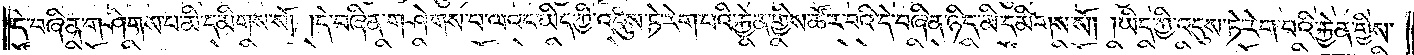དེ་བཞིན་གཤེགས་པ་མི་དམིགས་སོ། །དེ་བཞིན་གཤེགས་པ་ལའང་ཡིད་ཀྱི་འདུས་ཏེ་རེག་པའི་རྐྱེན་གྱིས་ཚོར་བའི་དེ་བཞིན་ཉིད་མི་དམིགས་སོ། །ཡིད་ཀྱི་འདུས་ཏེ་རེག་པའི་རྐྱེན་གྱིས་
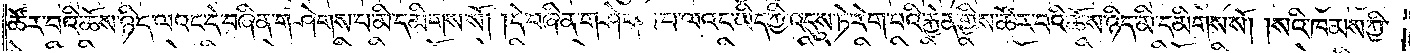ཚོར་བའི་ཆོས་ཉིད་ལའང་དེ་བཞིན་གཤེགས་པ་མི་དམིགས་སོ། །དེ་བཞིན་གཤེགས་པ་ལའང་ཡིད་ཀྱི་འདུས་ཏེ་རེག་པའི་རྐྱེན་གྱིས་ཚོར་བའི་ཆོས་ཉིད་མི་དམིགས་སོ། །སའི་ཁམས་ཀྱི་
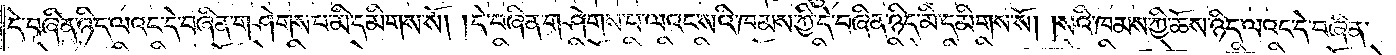དེ་བཞིན་ཉིད་ལའང་དེ་བཞིན་གཤེགས་པ་མི་དམིགས་སོ། །དེ་བཞིན་གཤེགས་པ་ལའང་སའི་ཁམས་ཀྱི་དེ་བཞིན་ཉིད་མི་དམིགས་སོ། །སའི་ཁམས་ཀྱི་ཆོས་ཉིད་ལའང་དེ་བཞིན་
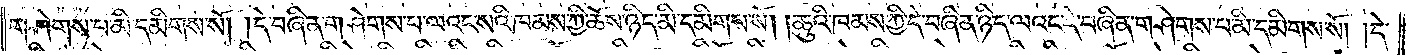གཤེགས་པ་མི་དམིགས་སོ། །དེ་བཞིན་གཤེགས་པ་ལའང་སའི་ཁམས་ཀྱི་ཆོས་ཉིད་མི་དམིགས་སོ། །ཆུའི་ཁམས་ཀྱི་དེ་བཞིན་ཉིད་ལའང་དེ་བཞིན་གཤེགས་པ་མི་དམིགས་སོ། །དེ་
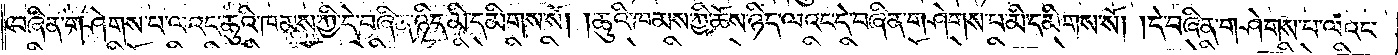བཞིན་གཤེགས་པ་ལའང་ཆུའི་ཁམས་ཀྱི་དེ་བཞིན་ཉིད་མི་དམིགས་སོ། །ཆུའི་ཁམས་ཀྱི་ཆོས་ཉིད་ལའང་དེ་བཞིན་གཤེགས་པ་མི་དམིགས་སོ། །དེ་བཞིན་གཤེགས་པ་ལའང་
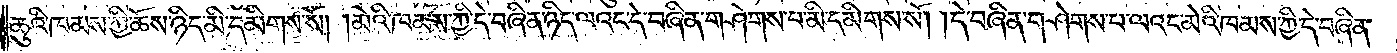ཆུའི་ཁམས་ཀྱི་ཆོས་ཉིད་མི་དམིགས་སོ། །མེའི་ཁམས་ཀྱི་དེ་བཞིན་ཉིད་ལའང་དེ་བཞིན་གཤེགས་པ་མི་དམིགས་སོ། །དེ་བཞིན་གཤེགས་པ་ལའང་མེའི་ཁམས་ཀྱི་དེ་བཞིན་
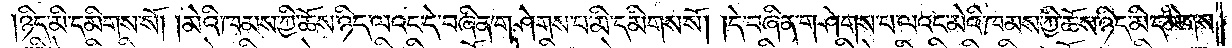ཉིད་མི་དམིགས་སོ། །མེའི་ཁམས་ཀྱི་ཆོས་ཉིད་ལའང་དེ་བཞིན་གཤེགས་པ་མི་དམིགས་སོ། །དེ་བཞིན་གཤེགས་པ་ལའང་མེའི་ཁམས་ཀྱི་ཆོས་ཉིད་མི་དམིགས་
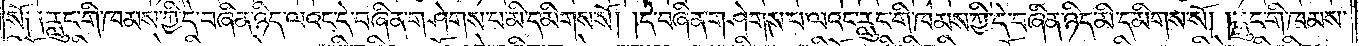སོ༑ ༑རླུང་གི་ཁམས་ཀྱི་དེ་བཞིན་ཉིད་ལའང་དེ་བཞིན་གཤེགས་པ་མི་དམིགས་སོ། །དེ་བཞིན་གཤེགས་པ་ལའང་རླུང་གི་ཁམས་ཀྱི་དེ་བཞིན་ཉིད་མི་དམིགས་སོ། །རླུང་གི་ཁམས་
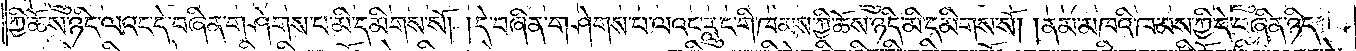ཀྱི་ཆོས་ཉིད་ལའང་དེ་བཞིན་གཤེགས་པ་མི་དམིགས་སོ། །དེ་བཞིན་གཤེགས་པ་ལའང་རླུང་གི་ཁམས་ཀྱི་ཆོས་ཉིད་མི་དམིགས་སོ། །ནམ་མཁའི་ཁམས་ཀྱི་དེ་བཞིན་ཉིད་
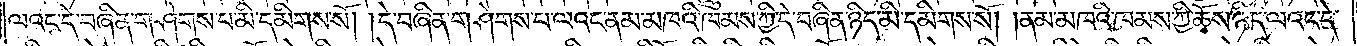ལའང་དེ་བཞིན་གཤེགས་པ་མི་དམིགས་སོ། །དེ་བཞིན་གཤེགས་པ་ལའང་ནམ་མཁའ་ཁམས་ཀྱི་དེ་བཞིན་ཉིད་མི་དམིགས་སོ། །ནམ་མཁའི་ཁམས་ཀྱི་ཆོས་ཉིད་ལའང་དེ་
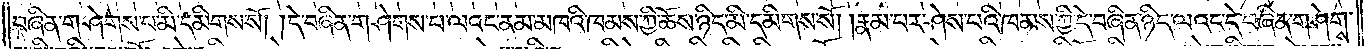བཞིན་གཤེགས་པ་མི་དམིགས་སོ། །དེ་བཞིན་གཤེགས་པ་ལའང་ནམ་མཁའི་ཁམས་ཀྱི་ཆོས་ཉིད་མི་དམིགས་སོ། །རྣམ་པར་ཤེས་པའི་ཁམས་ཀྱི་དེ་བཞིན་ཉིད་ལའང་དེ་བཞིན་གཤེགས་
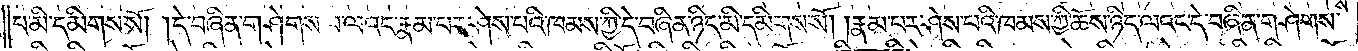པ་མི་དམིགས་སོ། །དེ་བཞིན་གཤེགས་པ་ལའང་རྣམ་པར་ཤེས་པའི་ཁམས་ཀྱི་དེ་བཞིན་ཉིད་མི་དམིགས་སོ། །རྣམ་པར་ཤེས་པའི་ཁམས་ཀྱི་ཆོས་ཉིད་ལའང་དེ་བཞིན་གཤེགས་
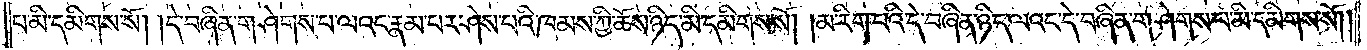པ་མི་དམིགས་སོ། །དེ་བཞིན་གཤེགས་པ་ལའང་རྣམ་པར་ཤེས་པའི་ཁམས་ཀྱི་ཆོས་ཉིད་མི་དམིགས་སོ། །མ་རིག་པའི་དེ་བཞིན་ཉིད་ལའང་དེ་བཞིན་གཤེགས་པ་མི་དམིགས་སོ༎
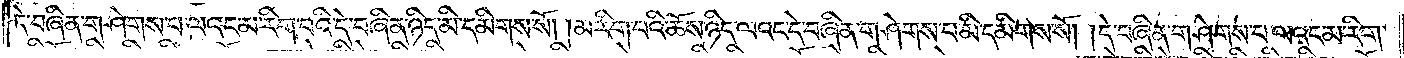དེ་བཞིན་གཤེགས་པ་ལའང་མ་རིག་པའི་དེ་བཞིན་ཉིད་མི་དམིགས་སོ། །མ་རིག་པའི་ཆོས་ཉིད་ལའང་དེ་བཞིན་གཤེགས་པ་མི་དམིགས་སོ། །དེ་བཞིན་གཤེགས་པ་ལའང་མ་རིག་
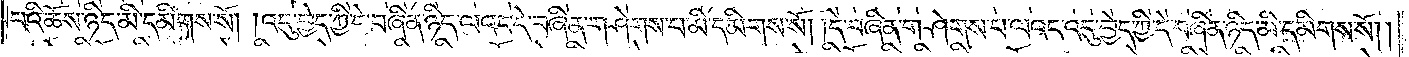པའི་ཆོས་ཉིད་མི་དམིགས་སོ། །འདུ་བྱེད་ཀྱི་དེ་བཞིན་ཉིད་ལའང་དེ་བཞིན་གཤེགས་པ་མི་དམིགས་སོ། །དེ་བཞིན་གཤེགས་པ་ལའང་འདུ་བྱེད་ཀྱི་དེ་བཞིན་ཉིད་མི་དམིགས་སོ༎
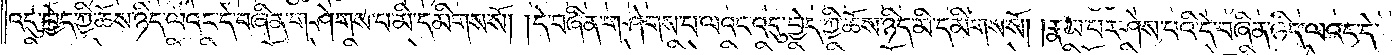འདུ་བྱེད་ཀྱི་ཆོས་ཉིད་ལའང་དེ་བཞིན་གཤེགས་པ་མི་དམིགས་སོ། །དེ་བཞིན་གཤེགས་པ་ལའང་འདུ་བྱེད་ཀྱི་ཆོས་ཉིད་མི་དམིགས་སོ། །རྣམ་པར་ཤེས་པའི་དེ་བཞིན་ཉིད་ལའང་དེ་
